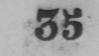35
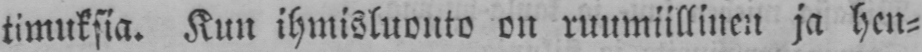timuksia. Kun ihmisluonto on ruumiillinen ja hen-
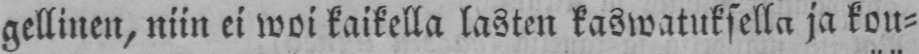gellinen, niin ei woi kaikella lasten kaswatuksella ja kou-
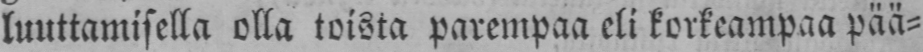luuttamisella olla toista parempaa eli korkeampaa pää-
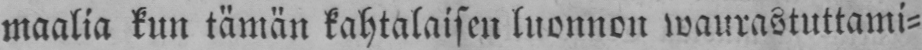maalia kun tämän kahtalaisen luonnon waurastuttami-
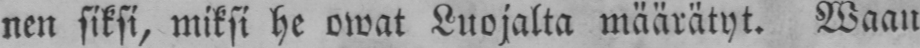nen siksi, miksi he owat Luojalta määrätyt. Waan
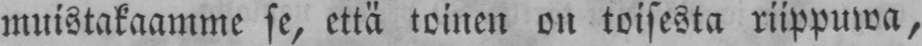muistakaamme se, että toinen on toisesta riippuwa,
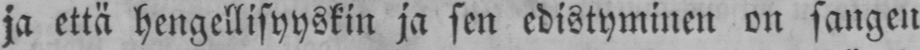ja että hengellisyyskin ja sen edistyminen on sangen
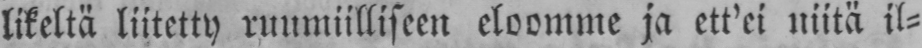likeltä liitetty ruumiilliseen eloomme ja ett'ei niitä il-
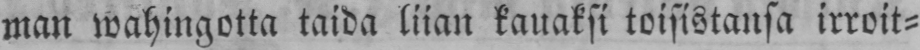man wahingotta taida liian kauaksi toisistansa irroit-
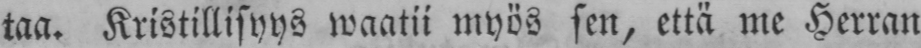taa. Kristillisyys waatii myös sen, että me Herran
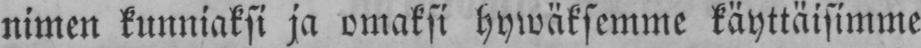nimen kunniaksi ja omaksi hywäksemme käyttäisimme
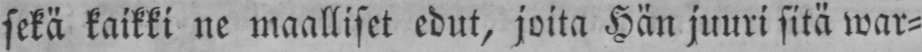sekä kaikki ne maalliset edut, joita Hän juuri sitä war-
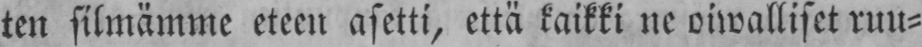ten silmämme eteen asetti, että kaikki ne oiwalliset ruu-
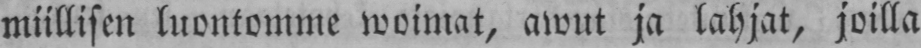miillisen luontomme woimat, awut ja lahjat, joilla
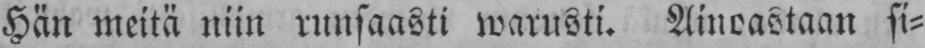Hän meitä niin runsaasti warusti. Ainoastaan si-
